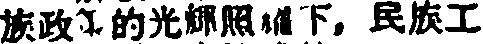族政策的光輝照耀下，民族工
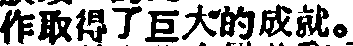作取得了巨大的成就。
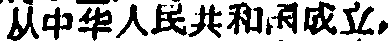从中华人民共和国成立，
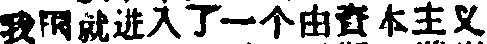我国就进入了一个由資本主义
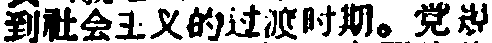到社会主义的过渡时期。党规
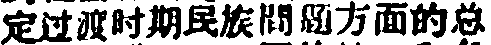定过渡时期民族問題方面的总
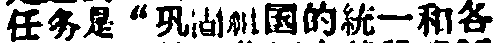任务是“巩固祖国的統一和各
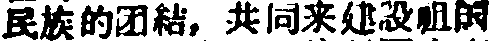民族的团結，共同来建設祖国
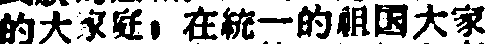的大家庭，在統一的祖国大家
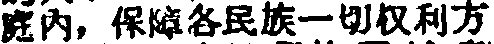庭內，保障各民族一切权利方
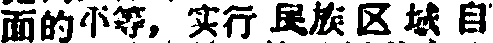面的平等，实行民族区域自
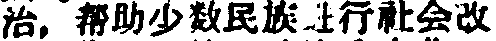治，帮助少数民族进行社会改
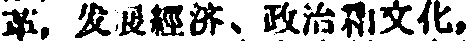草，发展經济、政治和文化，
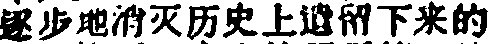逐步地消灭历史上遗留下来的
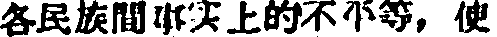各民族間事实上的不平等，使
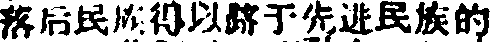落后民族得以跻于先进民族的
